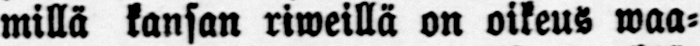millä kansan riweillä on oikeus waa-
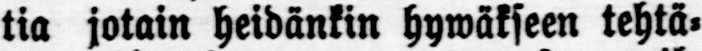tia jotain heidänkin hywäkseen tehtä-
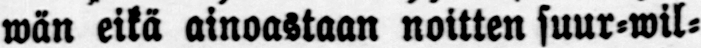wän eikä ainoastaan noitten suur-wil-
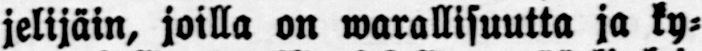jelijäin, joilla on warallisuutta ja ky-
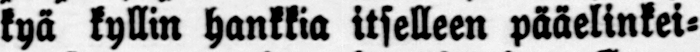kyä kyllin hankkia itselleen pääelinkei-
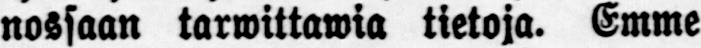nossaan tarwittawia tietoja. Emme
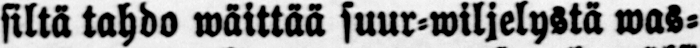siltä tahdo wäittää suur-wiljelystä was-
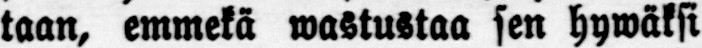taan, emmekä wastustaa sen hywäksi
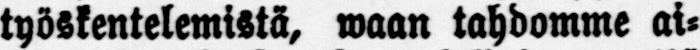työskentelemistä, waan tahdomme ai-
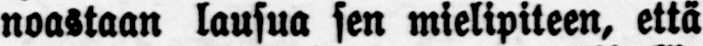noastaan lausua sen mielipiteen, että
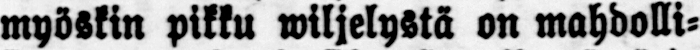myöskin pikku wiljelystä on mahdolli-
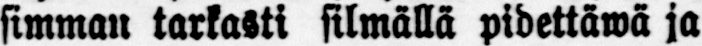simman tarkasti silmällä pidettäwä ja
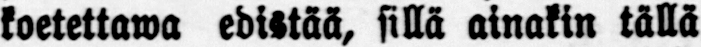koetettawa edistää, sillä ainakin tällä
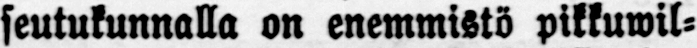seutukunnalla on enemmistö pikkuwil-
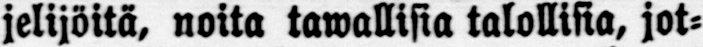jelijöitä, noita tawallisia talollisia, jot-
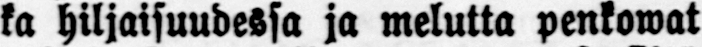ka hiljaisuudessa ja melutta penkowat
